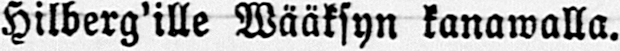Hilberg'ille Wääksyn kanawalla.
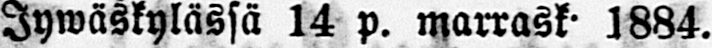Jywäskylässä 14 p. marrask 1884.
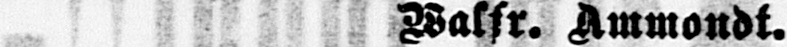Walfr. Ammondt.
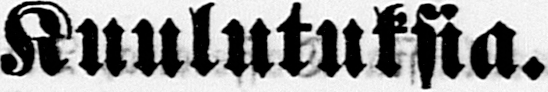Kuulutuksia.
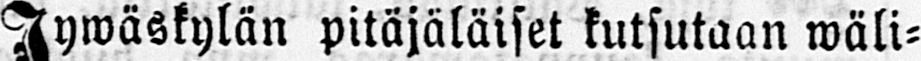Jywäskylän pitäjäläiset kutsutaan wäli-
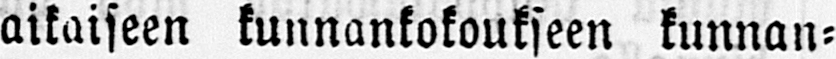aikaiseen kunnankokoukseen kunnan-
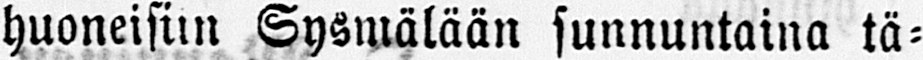huoneisiin Sysmälään sunnuntaina tä-
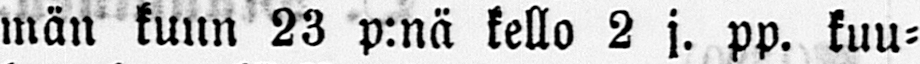män kuun 23 p:nä kello 2 j. pp. kuu-
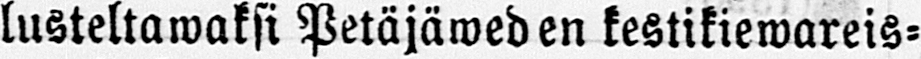lusteltawaksi Petäjäweden kestikiewareis-
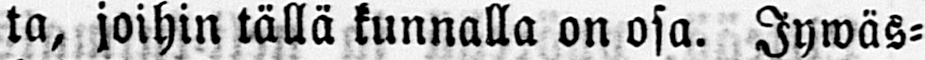ta, joihin tällä kunnalla on osa. Jywäs-
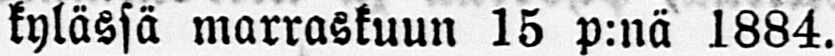kylässä marraskuun 15 p:nä 1884.
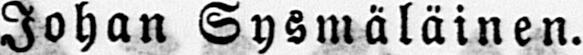Johan Sysmäläinen.
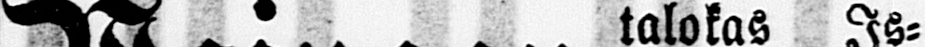Wainaan talokas Is-
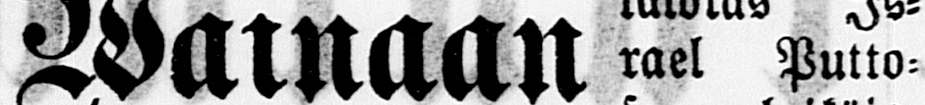rael Putto-
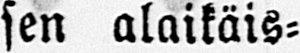sen alaikäis-
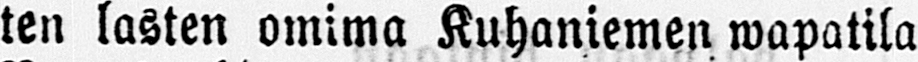ten lasten omima Kuhaniemen wapatila
